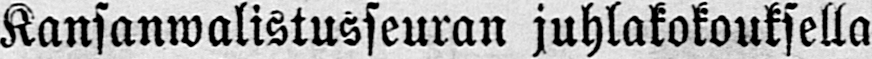Kansanwalistusseuran juhlakokouksella
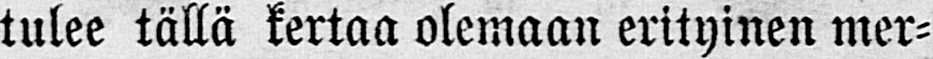tulee tällä kertaa olemaan erityinen mer-
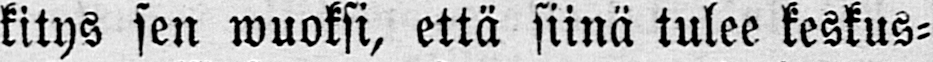kitys sen wuoksi, että siinä tulee keskus-
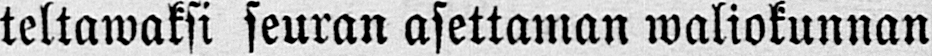teltawaksi seuran asettaman waliokunnan
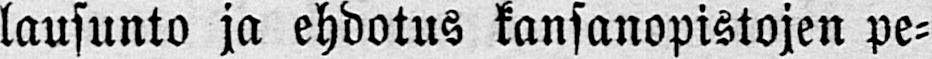lausunto ja ehdotus kansanopistojen pe-
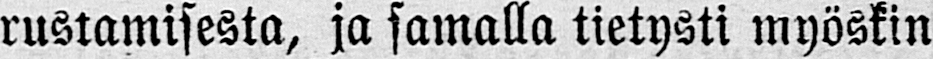rustamisesta, ja samalla tietysti myöskin
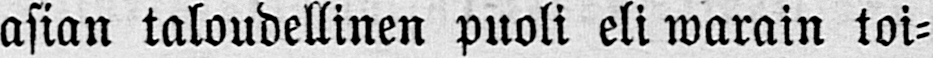asian taloudellinen puoli eli warain toi-
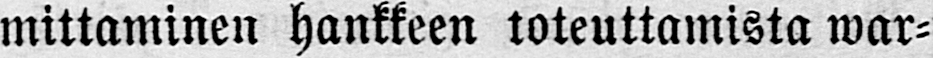mittaminen hankkeen toteuttamista war-
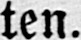ten.
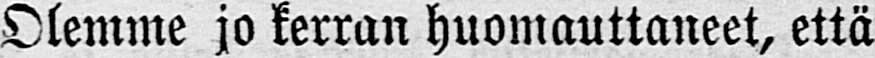Olemme jo kerran huomauttaneet, että
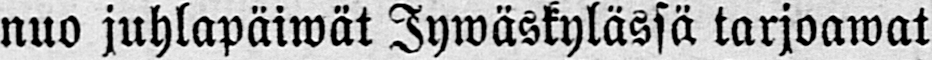nuo juhlapäiwät Jywäskylässä tarjoawat
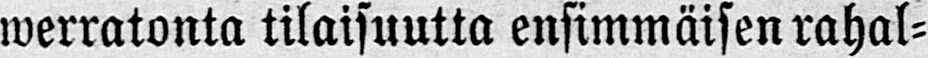werratonta tilaisuutta ensimmäisen rahal-
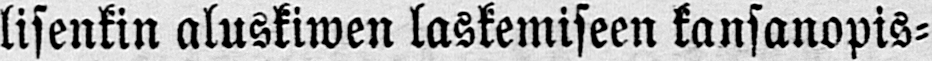lisenkin aluskiwen laskemiseen kansanopis-
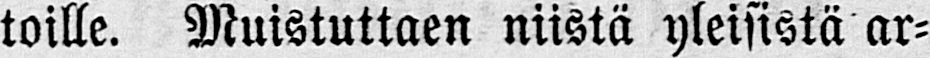toille. Muistuttaen niistä yleisistä ar-
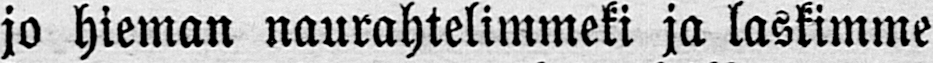jo hieman naurahtelimmeki ja laskimme
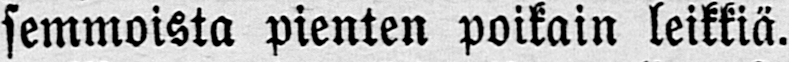semmoista pienten poikain leikkiä.
